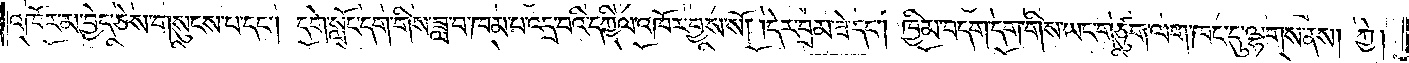འཁོར་མ་བྱེད་ཅེས་གསུངས་པ་དང༌། དགེ་སློང་དག་གིས་ཟླ་བ་ཁམ་པ་འདྲ་བའི་དཀྱིལ་འཁོར་བྱས་སོ། །དེར་བྲམ་ཟེ་དང༌། ཁྱིམ་བདག་དག་གིས་ཡང་གཙུག་ལག་ཁང་དུ་ལྷགས་ནས། ཀྱེ།
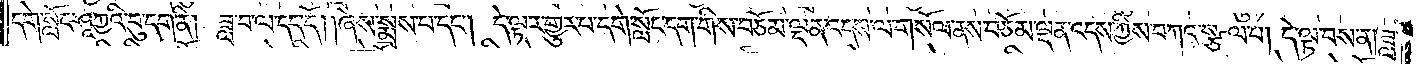དགེ་སློང་ཤཱཀྱའི་བུ་དག་ནི། ཟླ་བ་ལ་དད་དོ། །ཞེས་སྨྲས་པ་དང༌། དེ་ལྟར་གྱུར་པ་དགེ་སློང་དག་གིས་བཅོམ་ལྡན་འདས་ལ་གསོལ་ནས་བཅོམ་ལྡན་འདས་ཀྱིས་བཀའ་སྩལ་པ། དེ་ལྟ་བས་ན། ཟླ་
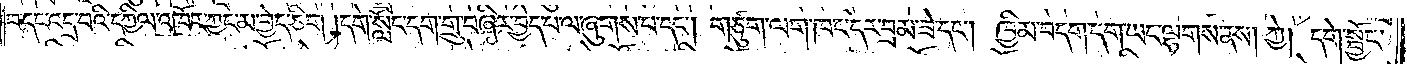བ་དང་འདྲ་བའི་དཀྱིལ་འཁོར་ཀྱང་མ་བྱེད་ཅིག །དགེ་སློང་དག་གྲུ་བཞིར་བྱེད་པ་ལ་ཞུགས་པ་དང༌། གཙུག་ལག་ཁང་དེར་བྲམ་ཟེ་དང༌། ཁྱིམ་བདག་དག་ཡང་ལྷགས་ནས། ཀྱེ། དགེ་སྦྱོང་
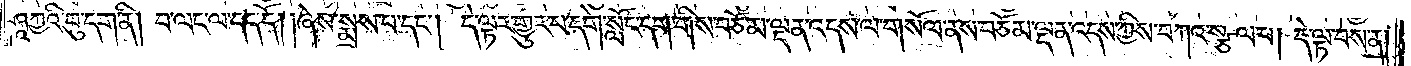ཤཱཀྱའི་བུ་དག་ནི། བ་ལང་ལ་དད་དོ། །ཞེས་སྨྲས་པ་དང༌། དེ་ལྟར་གྱུར་པ་དགེ་སློང་དག་གིས་བཅོམ་ལྡན་འདས་ལ་གསོལ་ནས་བཅོམ་ལྡན་འདས་ཀྱིས་བཀའ་སྩལ་པ། དེ་ལྟ་བས་ན།
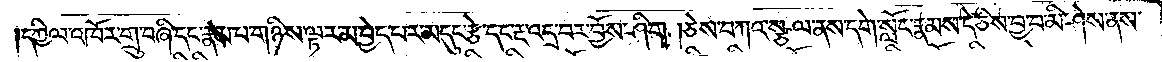དཀྱིལ་འཁོར་གྲུ་བཞི་དང་རྣམ་པ་གཉིས་ལྟར་མ་བྱེད་པར་མདུང་རྩེ་དང་རྔ་འདྲ་བར་བྱོས་ཤིག །ཅེས་བཀའ་སྩལ་ནས་དགེ་སློང་རྣམས་དེ་ཅིས་བྱ་བ་མི་ཤེས་ནས་
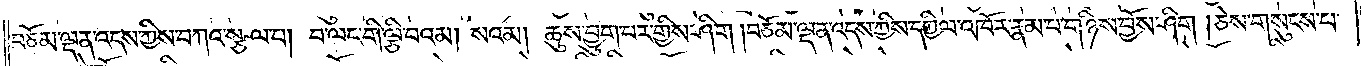བཅོམ་ལྡན་འདས་ཀྱིས་བཀའ་སྩལ་པ། བ་ལང་གི་ལྕི་བའམ། སའམ། ཆུས་བྱུག་པར་གྱིས་ཤིག །བཅོམ་ལྡན་འདས་ཀྱིས་དཀྱིལ་འཁོར་རྣམ་པ་གཉིས་བྱོས་ཤིག །ཅེས་གསུངས་པ་
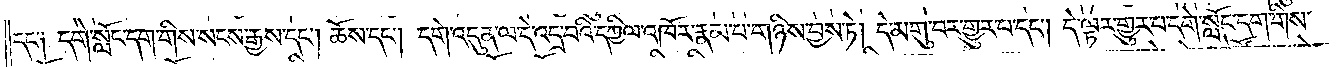དང་༑ དགེ་སློང་དག་གིས་སངས་རྒྱས་དང༌། ཆོས་དང༌། དགེ་འདུན་ལ་དེ་འདྲ་བའི་དཀྱིལ་འཁོར་རྣམ་པ་གཉིས་བྱས་ཏེ། དེ་མགུ་བར་གྱུར་པ་དང༌། དེ་ལྟར་གྱུར་པ་དགེ་སློང་དག་གིས་
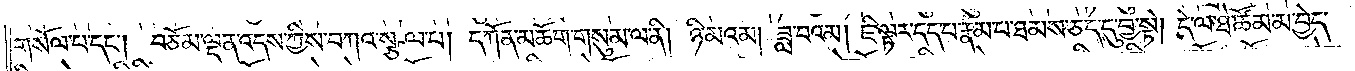གསོལ་པ་དང༌། བཅོམ་ལྡན་འདས་ཀྱིས་བཀའ་སྩལ་པ། དཀོན་མཆོག་གསུམ་ལ་ནི། ཉི་མའམ། ཟླ་བའམ། ཇི་ལྟར་དད་པ་རྣམ་པ་ཐམས་ཅད་དུ་བྱ་སྟེ། དེ་ལ་ཐེ་ཚོམ་མ་བྱེད་
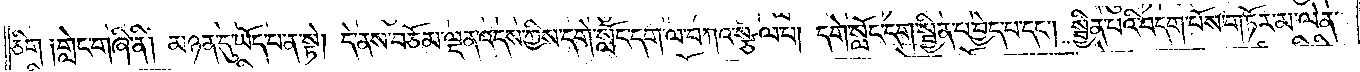ཅིག་༑གླེང་གཞི་ནི། མཉན་དུ་ཡོད་པ་ན་སྟེ། དེ་ནས་བཅོམ་ལྡན་འདས་ཀྱིས་དགེ་སློང་དག་ལ་བཀའ་སྩལ་པ། དགེ་སློང་དག་སྦྱིན་པ་བྱེད་པ་དང༌། སྦྱིན་པའི་བདག་པོས་གཏོར་མ་ལེན་
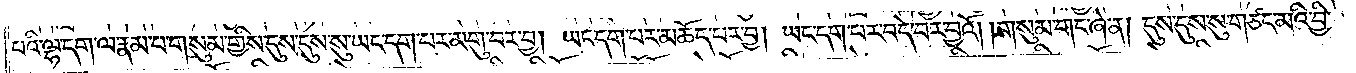པའི་ལྷ་དག་ལ་རྣམ་པ་གསུམ་གྱིས་དུས་དུས་སུ་ཡང་དག་པར་མགུ་བར་བྱ། ཡང་དག་པར་མཆོད་པར་བྱ། ཡང་དག་པར་བདེ་བར་བྱའོ། །གསུམ་གང་ཞེ་ན། དུས་དུས་སུ་གཙང་མའི་བྱི་
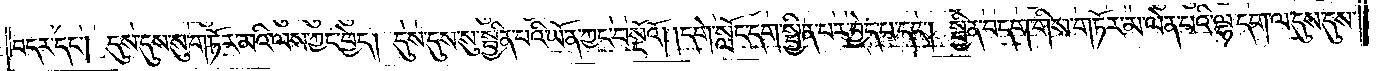བདར་དང༌། དུས་དུས་སུ་གཏོར་མའི་ལས་ཀྱང་བྱེད། དུས་དུས་སུ་སྦྱིན་པའི་ཡོན་ཀྱང་བསྔོའོ། །དགེ་སློང་དག་སྦྱིན་པར་བྱེད་པ་དང༌། སྦྱིན་བདག་གིས་གཏོར་མ་ལེན་པའི་ལྷ་དག་ལ་དུས་དུས་
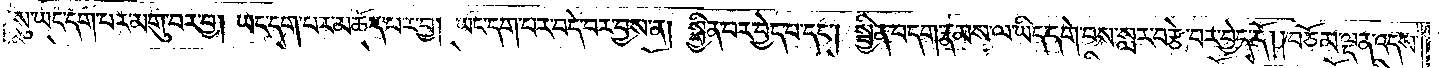སུ་ཡང་དག་པར་མགུ་བར་བྱ། ཡང་དག་པར་མཆོད་པར་བྱ། ཡང་དག་པར་བདེ་བར་བྱས་ན། སྦྱིན་པར་བྱེད་པ་དང༌། སྦྱིན་བདག་རྣམས་ལ་ཡིད་དགེ་བས་སླར་བརྩེ་བར་བྱེད་དོ། །བཅོམ་ལྡན་འདས་
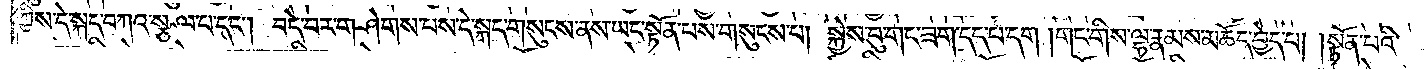ཀྱིས་དེ་སྐད་བཀའ་སྩལ་པ་དང༌། བདེ་བར་གཤེགས་པས་དེ་སྐད་གསུངས་ནས་ཡང་སྟོན་པས་གསུངས་པ། སྐྱེས་བུ་གང་ཟག་དད་པ་དག །གང་གིས་ལྷ་རྣམས་མཆོད་བྱེད་པ། །སྟོན་པའི་
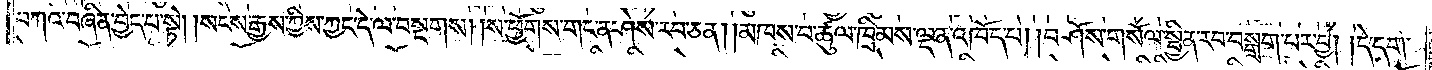བཀའ་བཞིན་བྱེད་པ་སྟེ། །སངས་རྒྱས་ཀྱིས་ཀྱང་དེ་ལ་བསྔགས། །ས་ཕྱོགས་གང་ན་ཤེས་རབ་ཅན། །མཁས་པ་ཚུལ་ཁྲིམས་ལྡན་འཁོད་པ། །བཤོས་གསོལ་སྦྱིན་རབ་བསྒྲག་པར་བྱ། །དེ་དག་
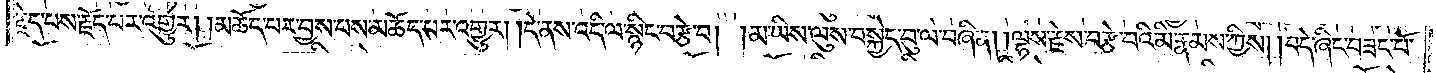རྗེད་པས་རྗོད་པར་འགྱུར། །མཆོད་པར་བྱས་པས་མཆོད་པར་འགྱུར། །དེ་ནས་འདི་ལ་སྙིང་བརྩེ་བ། །མ་ཡིས་ལུས་བསྐྱེད་བུ་ལ་བཞིན། །ལྷས་རྗེས་བརྩེ་བའི་མི་རྣམས་ཀྱིས། །བདེ་ཞིང་བཟང་པོ་
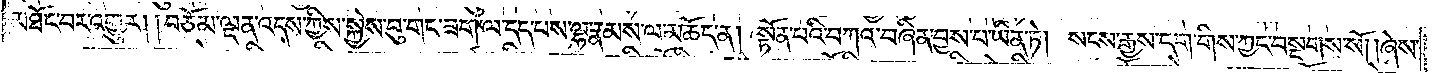མཐོང་བར་འགྱུར། །བཅོམ་ལྡན་འདས་ཀྱིས་སྐྱེས་བུ་གང་ཟག་ལ་དད་པས་ལྷ་རྣམས་ལ་མཆོད་ན། སྟོན་པའི་བཀའ་བཞིན་བྱས་པ་ཡིན་ཏེ། སངས་རྒྱས་དག་གིས་ཀྱང་བསྔགས་སོ། །ཞེས་
